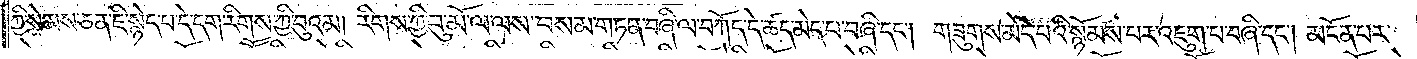ཀྱི་སེམས་ཅན་ཇི་སྙེད་པ་དེ་དག་རིགས་ཀྱི་བུའམ། རིགས་ཀྱི་བུ་མོ་ལ་ལས་བསམ་གཏན་བཞི་ལ་བཀོད་དེ་ཚད་མེད་པ་བཞི་དང༌། གཟུགས་མེད་པའི་སྙོམས་པར་འཇུག་པ་བཞི་དང༌། མངོན་པར་
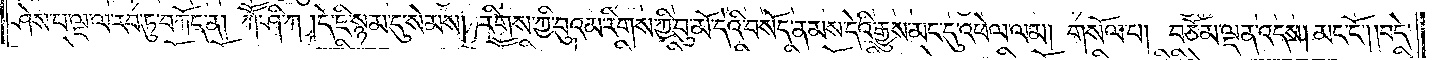ཤེས་པ་ལྔ་ལ་རབ་ཏུ་བཀོད་ན། ཀཽ་ཤི་ཀ །དེ་ཇི་སྙམ་དུ་སེམས། རིགས་ཀྱི་བུའམ་རིགས་ཀྱི་བུ་མོ་དེའི་བསོད་ནམས་དེའི་རྒྱུས་མང་དུ་འཕེལ་ལམ། གསོལ་པ། བཅོམ་ལྡན་འདས། མང་ངོ༌། །བདེ་
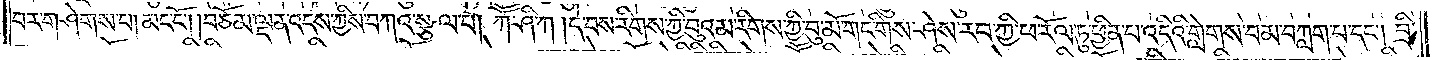བར་གཤེགས་པ། མང་ངོ༌། །བཅོམ་ལྡན་འདས་ཀྱིས་བཀའ་སྩལ་བ། ཀཽ་ཤི་ཀ །དེ་བས་རིགས་ཀྱི་བུའམ་རིགས་ཀྱི་བུ་མོ་གང་གིས་ཤེས་རབ་ཀྱི་ཕ་རོལ་ཏུ་ཕྱིན་པ་འདིའི་གླེགས་བམ་བཀླག་པ་དང༌། བྲི་
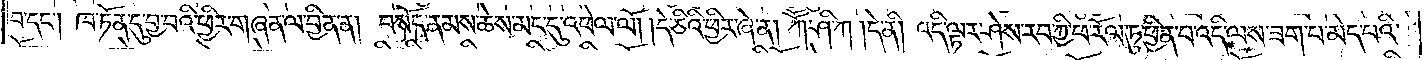བ་དང༌། ཁ་ཏོན་དུ་བྱ་བའི་ཕྱིར་གཞན་ལ་བྱིན་ན། བསོད་ནམས་ཆེས་མང་དུ་འཕེལ་ལོ། །དེ་ཅིའི་ཕྱིར་ཞེ་ན། ཀཽ་ཤི་ཀ །དེ་ནི། འདི་ལྟར་ཤེས་རབ་ཀྱི་ཕ་རོལ་ཏུ་ཕྱིན་པ་འདི་ལས་ཟག་པ་མེད་པའི་
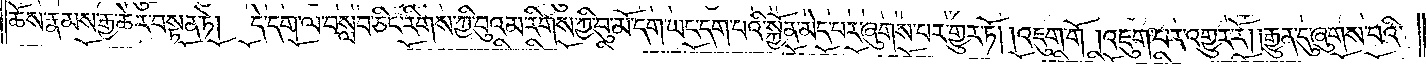ཆོས་རྣམས་རྒྱ་ཆེར་བསྟན་ཏེ། དེ་དག་ལ་བསླབ་ཅིང་རིགས་ཀྱི་བུའམ་རིགས་ཀྱི་བུ་མོ་དག་ཡང་དག་པའི་སྐྱོན་མེད་པར་ཞུགས་པར་གྱུར་ཏོ། །འཇུག་གོ །འཇུག་པར་འགྱུར་རོ། །རྒྱུན་དུ་ཞུགས་པའི་
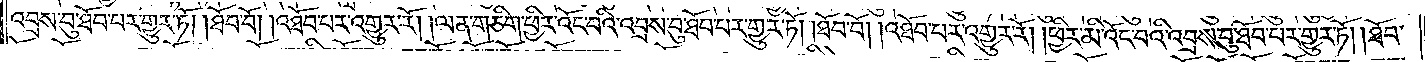འབྲས་བུ་ཐོབ་པར་གྱུར་ཏོ། །ཐོབ་བོ། འཐོབ་པར་འགྱུར་རོ། །ལན་གཅིག་ཕྱིར་འོང་བའི་འབྲས་བུ་ཐོབ་པར་གྱུར་ཏོ། །ཐོབ་བོ། འཐོབ་པར་འགྱུར་རོ། །ཕྱིར་མི་འོང་བའི་འབྲས་བུ་ཐོབ་པར་གྱུར་ཏོ། །ཐོབ་
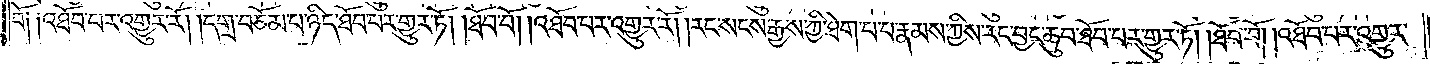བོ༑ ༑འཐོབ་པར་འགྱུར་རོ། །དགྲ་བཅོམ་པ་ཉིད་ཐོབ་པར་གྱུར་ཏོ། །ཐོབ་བོ། འཐོབ་པར་འགྱུར་རོ། །རང་སངས་རྒྱས་ཀྱི་ཐེག་པ་བ་རྣམས་ཀྱིས་རང་བྱང་ཆུབ་ཐོབ་པར་གྱུར་ཏོ། །ཐོབ་བོ། འཐོབ་པར་འགྱུར་
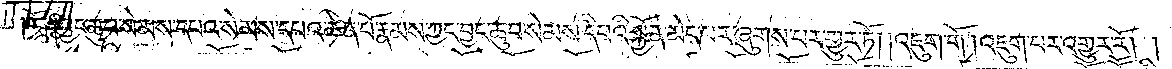རོ། །བྱང་ཆུབ་སེམས་དཔའ་སེམས་དཔའ་ཆེན་པོ་རྣམས་ཀྱང་བྱང་ཆུབ་སེམས་དཔའི་སྐྱོན་མེད་པར་ཞུགས་པར་གྱུར་ཏོ། །འཇུག་གོ །འཇུག་པར་འགྱུར་རོ། །
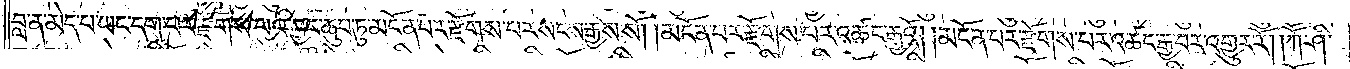བླ་ན་མེད་པ་ཡང་དག་པར་རྫོགས་པའི་བྱང་ཆུབ་ཏུ་མངོན་པར་རྫོགས་པར་སངས་རྒྱས་སོ། །མངོན་པར་རྫོགས་པར་འཚང་རྒྱའོ། །མངོན་པར་རྫོགས་པར་འཚང་རྒྱ་བར་འགྱུར་རོ། །ཀཽ་ཤི་
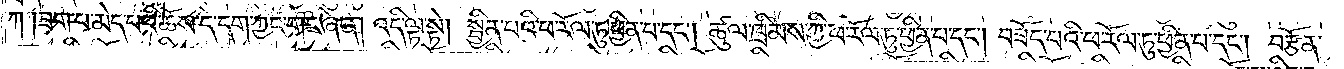ཀ །ཟག་པ་མེད་པའི་ཆོས་དེ་དག་ཀྱང་གང་ཞེ་ན། འདི་ལྟ་སྟེ། སྦྱིན་པའི་ཕ་རོལ་ཏུ་ཕྱིན་པ་དང༌། ཚུལ་ཁྲིམས་ཀྱི་ཕ་རོལ་ཏུ་ཕྱིན་པ་དང༌། བཟོད་པའི་ཕ་རོལ་ཏུ་ཕྱིན་པ་དང༌། བརྩོན་
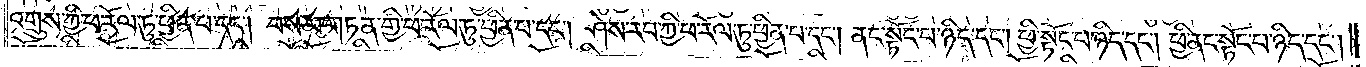འགྲུས་ཀྱི་ཕ་རོལ་ཏུ་ཕྱིན་པ་དང༌། བསམ་གཏན་གྱི་ཕ་རོལ་ཏུ་ཕྱིན་པ་དང༌། ཤེས་རབ་ཀྱི་ཕ་རོལ་ཏུ་ཕྱིན་པ་དང༌། ནང་སྟོང་པ་ཉིད་དང༌། ཕྱི་སྟོང་པ་ཉིད་དང༌། ཕྱི་ནང་སྟོང་པ་ཉིད་དང༌།
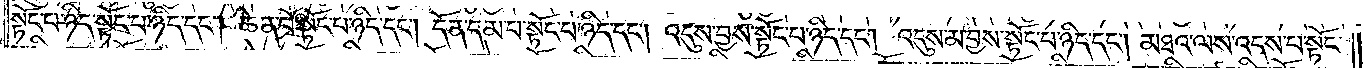སྟོང་པ་ཉིད་སྟོང་པ་ཉིད་དང༌། ཆེན་པོ་སྟོང་པ་ཉིད་དང༌། དོན་དམ་པ་སྟོང་པ་ཉིད་དང༌། འདུས་བྱས་སྟོང་པ་ཉིད་དང༌། འདུས་མ་བྱས་སྟོང་པ་ཉིད་དང༌། མཐའ་ལས་འདས་པ་སྟོང་
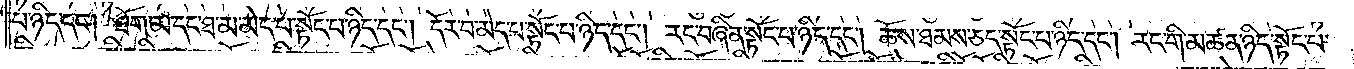པ་ཉིད་དང༌། ཐོག་མ་དང་ཐ་མ་མེད་པ་སྟོང་པ་ཉིད་དང༌། དོར་བ་མེད་པ་སྟོང་པ་ཉིད་དང༌། རང་བཞིན་སྟོང་པ་ཉིད་དང༌། ཆོས་ཐམས་ཅད་སྟོང་པ་ཉིད་དང༌། རང་གི་མཚན་ཉིད་སྟོང་པ་
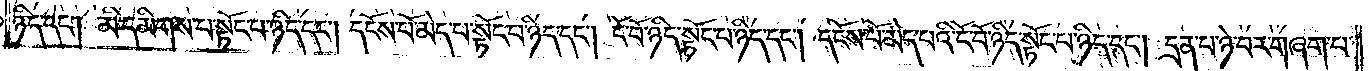ཉིད་དང༌། མི་དམིགས་པ་སྟོང་པ་ཉིད་དང༌། དངོས་པོ་མེད་པ་སྟོང་པ་ཉིད་དང༌། ངོ་བོ་ཉིད་སྟོང་པ་ཉིད་དང༌། དངོས་པོ་མེད་པའི་ངོ་བོ་ཉིད་སྟོང་པ་ཉིད་དང༌། དྲན་པ་ཉེ་བར་གཞག་པ་
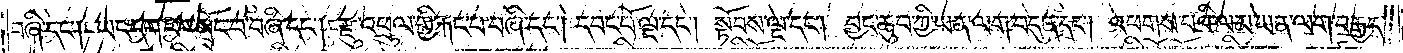བཞི་དང༌། ཡང་དག་པར་སྤོང་བ་བཞི་དང༌། རྫུ་འཕྲུལ་གྱི་རྐང་པ་བཞི་དང༌། དབང་པོ་ལྔ་དང༌། སྟོབས་ལྔ་དང༌། བྱང་ཆུབ་ཀྱི་ཡན་ལག་བདུན་དང༌། འཕགས་པའི་ལམ་ཡན་ལག་བརྒྱད་
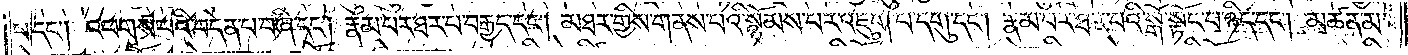པ་དང༌། འཕགས་པའི་བདེན་པ་བཞི་དང༌། རྣམ་པར་ཐར་པ་བརྒྱད་དང༌། མཐར་གྱིས་གནས་པའི་སྙོམས་པར་འཇུག་པ་དགུ་དང༌། རྣམ་པར་ཐར་པའི་སྒོ་སྟོང་པ་ཉིད་དང༌། མཚན་མ་
